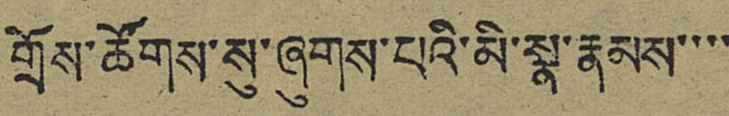གྲོས་ཚོགས་སུ་ཞུགས་པའི་མི་སྣ་རྣམས་་་་
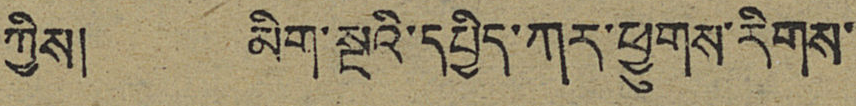ཀྱིས། མིག་སྔའི་དཔྱིད་ཀར་ཕྱུགས་རིགས་
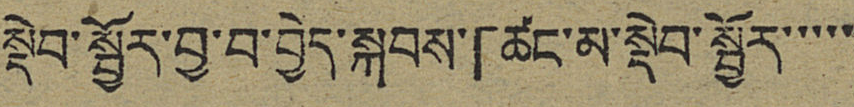སྡེབ་སྦྱོར་བྱ་བ་བྱེད་སྐབས་「ཚང་མ་སྡེབ་སྦྱོར་་་་་
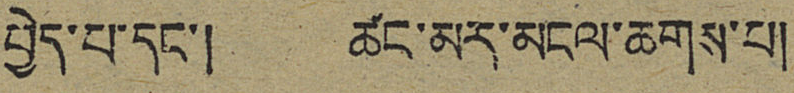བྱེད་པ་དང་། ཚང་མར་མངལ་ཆགས་པ།
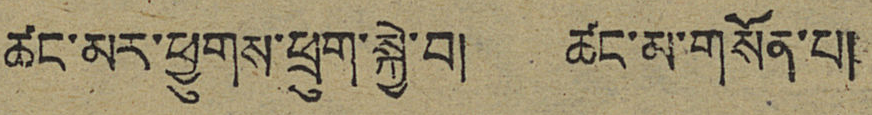ཚང་མར་ཕྱུགས་ཕྲུག་སྐྱེ་བ། ཚང་མ་གསོན་པ།
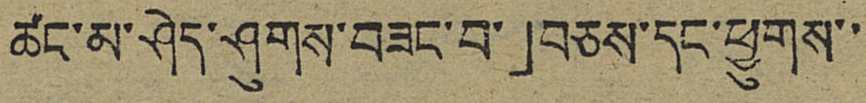ཚང་མ་ཤེད་ཤུགས་བཟང་བ་」བཅས་དང་ཕྱུགས་
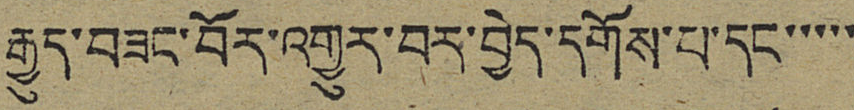རྒྱུད་བཟང་བོར་འགྱུར་བར་བྱེད་དགོས་པ་དང་་་་་
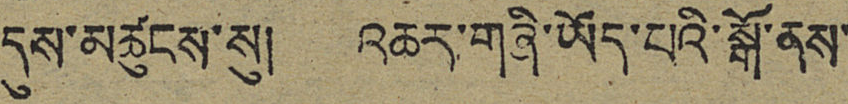དུས་མཚུངས་སུ། འཆར་གཞི་ཡོད་པའི་སྒོ་ནས་
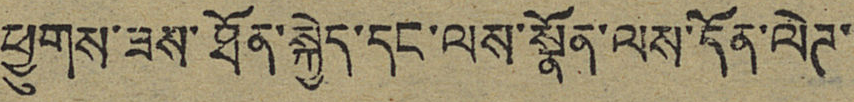ཕྱུགས་ཟས་ཐོན་སྐྱེད་དང་ལས་སྣོན་ལས་དོན་ལེཊ་
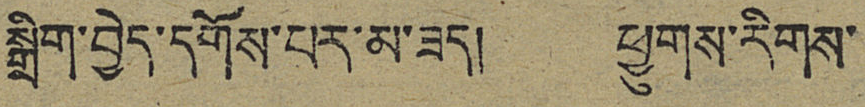སྒྲིག་བྱེད་དགོས་པར་མ་ཟད། ཕྱུགས་རིགས་
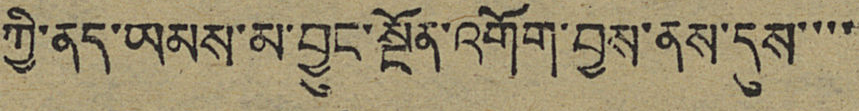ཀྱི་ནད་ཡམས་མ་བྱུང་སྔོན་འགོག་བྱས་ནས་དུས་་་་
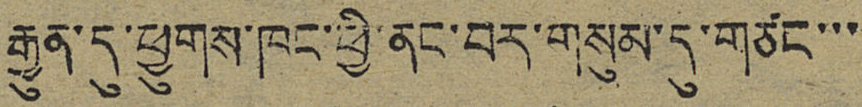རྒྱུན་དུ་ཕྱུགས་ཁང་ཕྱི་ནང་བར་གསུམ་དུ་གཙང་་་
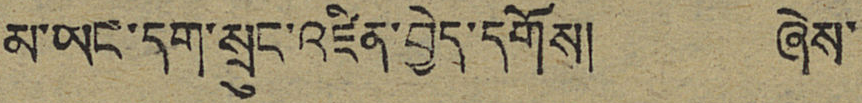མ་ཡང་དག་སྲུན་བཛིན་བྱེད་དགོས། ཞེས་
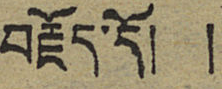བརྗོད་དོ། །
